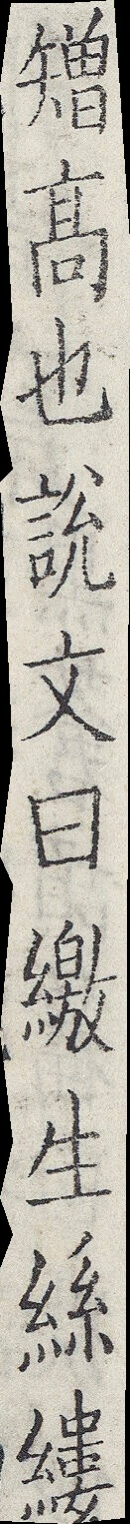矰高也說文曰繳生絲縷
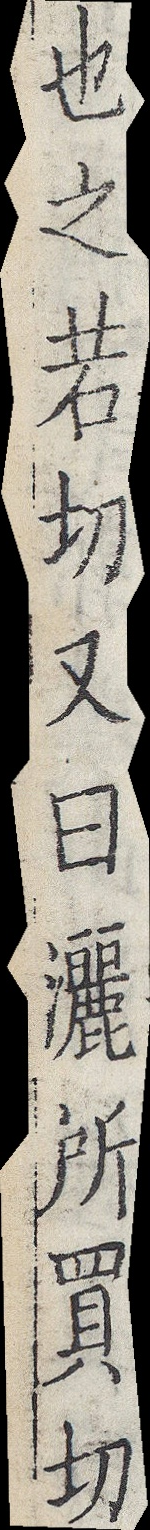也之若切又曰灑所買切
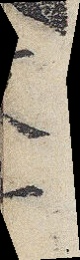文一
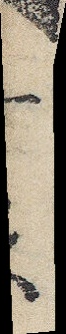一十六
